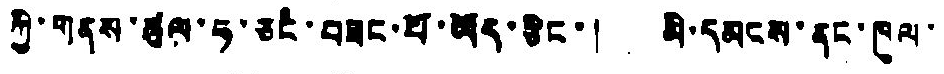ཀྱི་གནས་ཚུལ་ཧ་ཅང་བཟང་པོ་ཡོད་ཅིང་། མི་དམངས་ནང་ཁུལ་
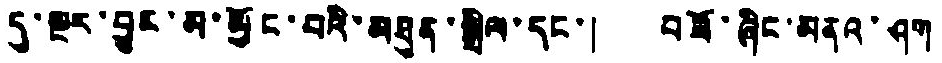དུ་སྔར་བྱུང་མ་མྱོང་བའི་མཐུན་སྒྲིལ་དང་། བཟོ་ཞིང་མནའ་ཤག
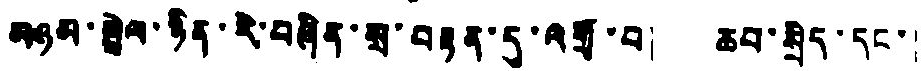མཉམ་སྦྲེལ་ཉིན་རེ་བཞིན་སྲ་བརྟན་དུ་འགྲོ་བ། ཆབ་སྲིད་དང་།
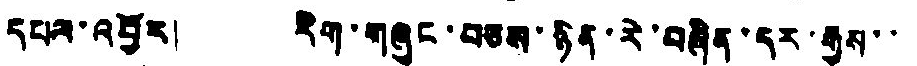དཔལ་འབྱོར། རིག་གཞུང་བཅས་ཉིན་རེ་བཞིན་དར་རྒྱས་་
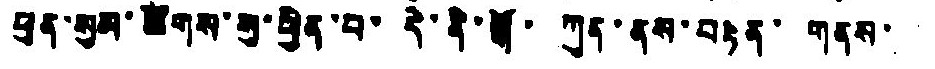ཕུན་སུམ་ཚོགས་སུ་ཕྱིན་པ་དེ་ནི་སྒོ་ཀུན་ནས་བརྟེན་གནས་
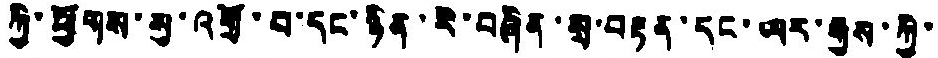ཀྱི་ཕྱོགས་སུ་འགྲོ་བ་དང་ཉིན་རེ་བཞིན་སྲ་བརྟན་དང་ཡར་རྒྱས་ཀྱི་
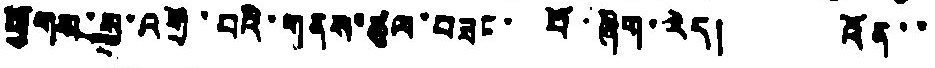ཕྱོགས་སུ་འགྲོ་བའི་གནས་ཚུལ་བཟང་པོ་ཞིག་རེད། འོན་་
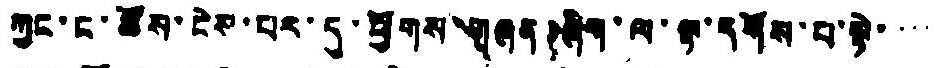ཀྱང་ང་ཚོས་ངེས་པར་དུ་ཕྱོགས་གཞན་ཞིག་ལ་ལྟ་དགོས་པ་སྟེ་་་་
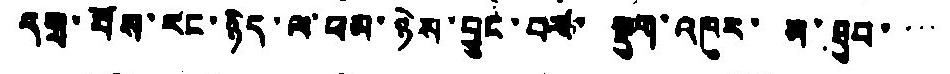དགྲ་པོས་རང་ཉིད་ལ་ཕམ་ཉེས་བྱུང་བར་སྡུག་འཁུར་མ་ཐུབ་་་་
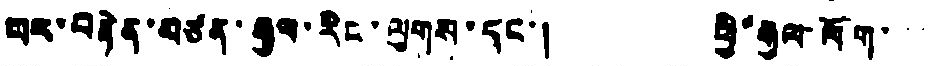པར་བརྟེན་མཙན་རྒྱལ་རིང་ལུགས་དང་། ཕྱི་རྒྱལ་ལོག་
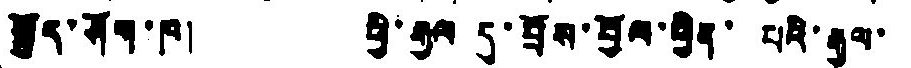སྤྱོད་ཤོག་ཁ། ཕྱི་རྒྱལ དུ་བྲོས་བྱོལ་ཕྱིན་ པའི་རྒྱལ་་
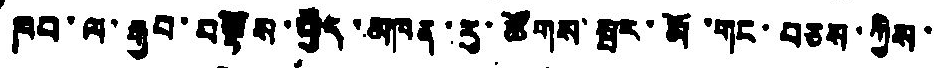ཁབ་ལ་རྒྱབ་བལྟོས་བྱེད་མཁན་རུ་ཚོགས་སྤར་མོ་གང་བཅས་ཀྱིས་
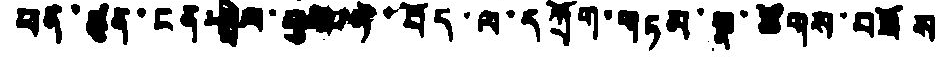ཕན་ཚུན་ངན་སྒྲིལ་རྒྱལ་ཏེ་བོད་ལ་དཀྲོག་གཏམ་སྣ་ཚོགས་བཟོས
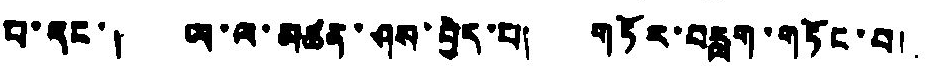བ་དང་། ཡ་ལ་མཚན་ཤས་བྱེད་པ། གཏོར་བརླག་གཏོང་བ།
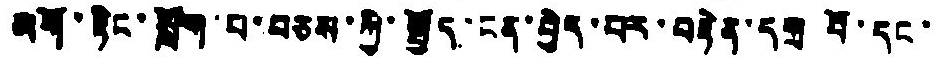མགོ་རྟིང་སློག་པ་བཅས་ཀྱི་སྤྱོད་ངན་བྱེད་པར་བརྟེན་དགྲ བོ་དང་
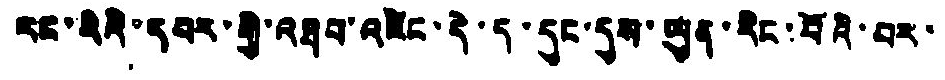རང་རེའི་དབར་གྱི་འཐབ་འཛིང་དེ་ད་དུང་དུས་ཡུན་རིང་བོའི་བར་
